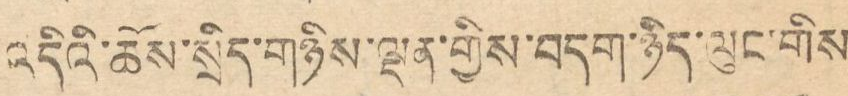འདིའི་ཆོས་སྲིད་གཉིས་ལྡན་གྱིས་བདག་ཉིད་ལུང་གིས
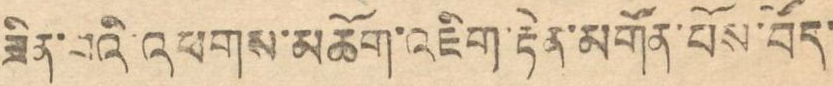ཟིན་བའི་འཕགས་མཆོག་འཇིག་རྟེན་མགོན་པོས་བོད་
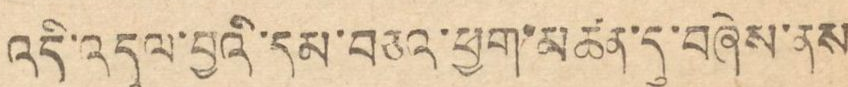འདི་འདུལ་བྱའི་དམ་བཅའ་ཕྱག་མཚན་དུ་བཞེས་ནས་
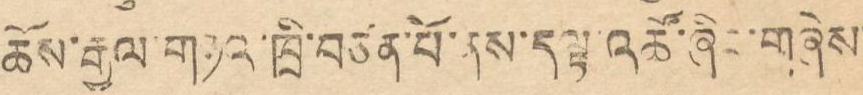ཆོས་རྒྱལ་གཉའ་ཁྲི་བཙན་པོ་ནས་ད་ལྟ་འཚོ་ཞིང་གཞེས་
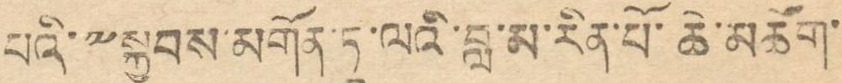པའི་༸སྐྱབས་མགོན་ཏཱ་ལའི་བླ་མ་རིན་པོ་ཆེ་མཆོག་
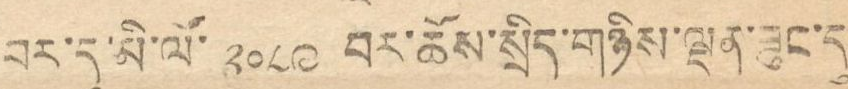བར་དུ་མི་ལོ་ ༢༠༨༩ བར་ཆོས་སྲིད་གཉིས་ལྡན་ཟུང་དུ
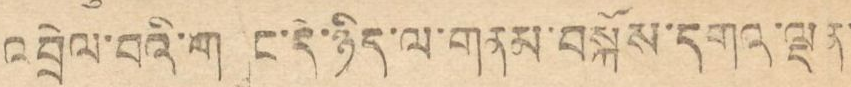འབྲེལ་བའི་གཞུང་དེ་ཉིད་ལ་གནམ་བསྐོས་དགའ་ལྡན་
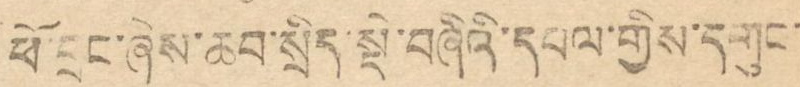ཕོ་བྲང་ཞེས་ཆབ་སྲིད་སྡེ་བཞིའི་དཔལ་གྱིས་དགུང་
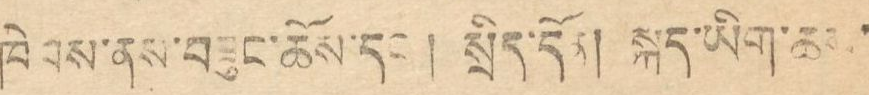ཁེབས་ནས་བཟུང་ཆོས་དང་། སྲིད་དོན། སྐད་ཡིག་ཆས་
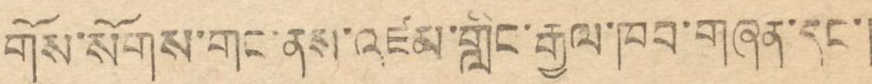གོས་སོགས་གང་ནས་འཛམ་གླིང་རྒྱལ་ཁབ་གཞན་དང་།
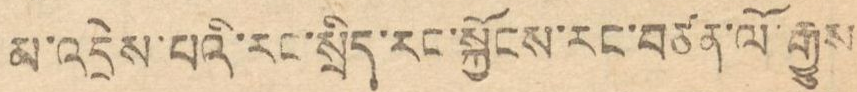མ་འདྲེས་པའི་རང་སྲིད་རང་སྐྱོངས་རང་བཙན་ལོ་རྒྱུས
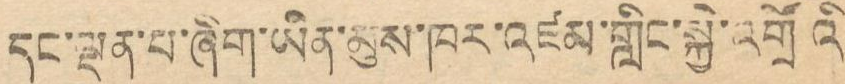དང་ལྡན་པ་ཞིག་ཡིན་མུས་ཁར་འཛམ་གླིང་སྐྱེ་འགྲོའི
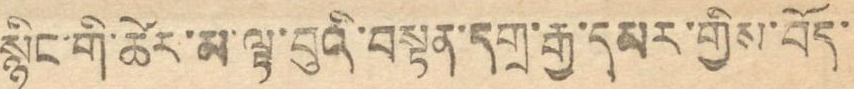སྙིང་གི་ཚེར་མ་ལྟ་བུའི་བསྟན་དགྲ་རྒྱ་དམར་གྱིས་བོད་
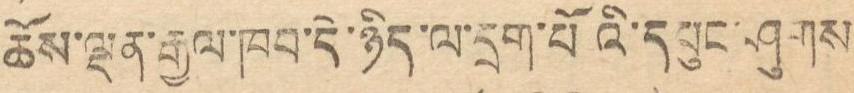ཆོས་ལྡན་རྒྱལ་ཁབ་དེ་ཉིད་ལ་དྲག་པོའི་དཔུང་ཤུགས
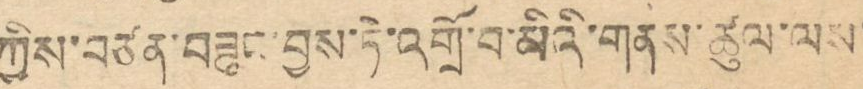ཀྱིས་བཙན་བཟུར་བྱས་ཏེ་འགྲོ་བ་མིའི་གནས་ཚུལ་ལས་
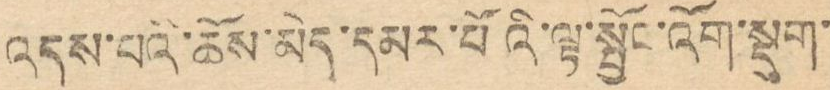འདས་པའི་ཆོས་མེད་དམར་པོའི་ལྟ་སྤྱོང་འོག་སྡུག་
